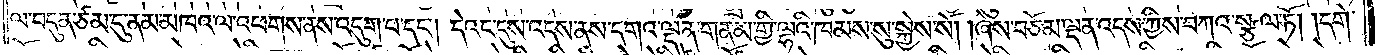ལ་བདུན་ཙམ་དུ་ནམ་མཁའ་ལ་འཕགས་ནས་འདུག་པ་དང༌། དེའང་དུས་འདས་ནས་དགའ་ལྡན་གནམ་གྱི་ལྷའི་ཁམས་སུ་སྐྱེས་སོ། །ཞེས་བཅོམ་ལྡན་འདས་ཀྱིས་བཀའ་སྩལ་ཏོ། །དགེ་
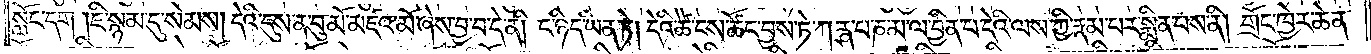སློང་དག །ཇི་སྙམ་དུ་སེམས། དེའི་དུས་ན་བུ་མོ་མཛའ་མོ་ཞེས་བྱ་བ་དེ་ནི། ང་ཉིད་ཡིན་ཏེ། དེའི་ཚེ་ངས་ཚོང་བྱས་ཏེ། ཀརྴ་པ་ཎ་མ་ལ་བྱིན་པ་དེའི་ལས་ཀྱི་རྣམ་པར་སྨིན་པས་ནི། གྲོང་ཁྱེར་ཆེན་
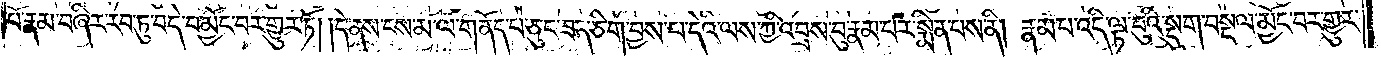པོ་རྣམ་བཞིར་རབ་ཏུ་བདེ་བ་མྱོང་བར་གྱུར་ཏོ། །དེ་ནས་ངས་མ་ལ་གནོད་པ་ཅུང་ཟད་ཅིག་བྱས་པ་དེའི་ལས་ཀྱི་འབྲས་བུ་རྣམ་པར་སྨིན་པས་ནི། རྣམ་པ་འདི་ལྟ་བུའི་སྡུག་བསྔལ་མྱོང་བར་གྱུར་
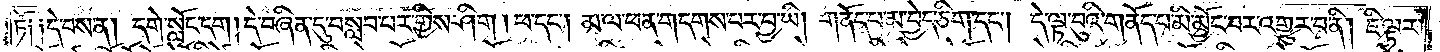ཏོ༑ ༑དེ་བས་ན། དགེ་སློང་དག །དེ་བཞིན་དུ་བསླབ་པར་གྱིས་ཤིག །ཕ་དང༌། མ་ལ་ཕན་གདགས་པར་བྱ་ཡི། གནོད་པ་མ་བྱེད་ཅིག་དང༌། དེ་ལྟ་བུའི་གནོད་པ་མི་མྱོང་བར་འགྱུར་བ་ནི། ཇི་ལྟར་
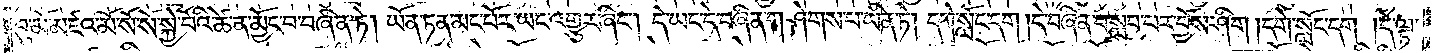བུ་མོ་མཛའ་མོ་སོ་སོ་སྐྱེ་བོའི་ཚེ་ན་མྱོང་བ་བཞིན་ཏེ། ཡོན་ཏན་མང་པོར་ཡང་འགྱུར་ཞིང༌། དེ་ཡང་དེ་བཞིན་གཤེགས་པ་ཡིན་ཏེ། དགེ་སློང་དག །དེ་བཞིན་བསླབ་པར་བྱོས་ཤིག །དགེ་སློང་དག །དེ་ལྟ་
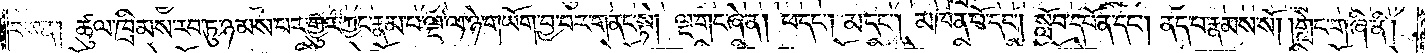བས་ན། ཚུལ་ཁྲིམས་རབ་ཏུ་ཉམས་པར་གྱུར་ཀྱང་རྣམ་པ་ལྔ་ལ་ཉེ་གཡོག་བྱ་བར་གནང་སྟེ། ལྔ་གང་ཞེ་ན། ཕ་དང༌། མ་དང༌། མཁན་པོ་དང༌། སློབ་དཔོན་དང༌། ནད་པ་རྣམས་སོ། །གླེང་གཞི་ནི།
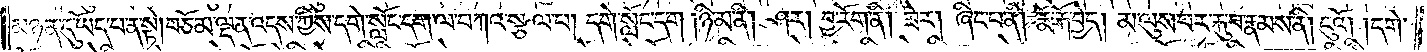མཉན་དུ་ཡོད་པ་ན་སྟེ། །བཅོམ་ལྡན་འདས་ཀྱིས་དགེ་སློང་དག་ལ་བཀའ་སྩལ་པ། དགེ་སློང་དག །ཉི་མ་ནི། ཤར། བྱ་རོག་ནི། ཟེར། ཞིང་པ་ནི། རྨོ་རྐོ་བྱེད། མ་ལུས་པར་རྐུ་བ་རྣམས་ནི། ངུའོ། །དགེ་
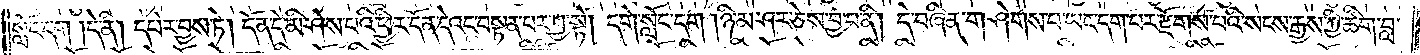སློང་དག །དེ་ནི། དཔེར་བྱས་ཏེ། དོན་དེ་མི་ཤེས་པའི་ཕྱིར་དོན་དེའང་བསྟན་པར་བྱ་སྟེ། དགེ་སློང་དག །ཉི་མ་ཤར་ཅེས་བྱ་བ་ནི། དེ་བཞིན་གཤེགས་པ་ཡང་དག་པར་རྫོགས་པའི་སངས་རྒྱས་ཀྱི་ཚིག་བླ་
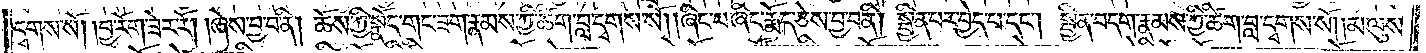དྭགས་སོ། །བྱ་རོག་ཟེར་རོ། །ཞེས་བྱ་བ་ནི། ཆོས་ཀྱི་སྣོད་གང་ཟག་རྣམས་ཀྱི་ཚིག་བླ་དྭགས་སོ། །ཞིང་བ་ཞིང་རྨོད་ཅེས་བྱ་བ་ནི། སྦྱིན་པར་བྱེད་པ་དང༌། སྦྱིན་བདག་རྣམས་ཀྱི་ཚིག་བླ་དྭགས་སོ། །མ་ལུས་
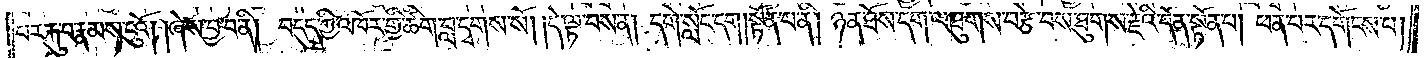པར་རྐུ་བ་རྣམས་ངུའོ། །ཞེས་བྱ་བ་ནི། བདུད་ཀྱི་འཁོར་གྱི་ཚིག་བླ་དྭགས་སོ། །དེ་ལྟ་བས་ན། དགེ་སློང་དག །སྟོན་པ་ནི། ཉན་ཐོས་དག་ལ་ཐུགས་བརྩེ་བས་ཐུགས་རྗེའི་དོན་སྟོན་པ། ཕན་པར་དགོངས་པ།
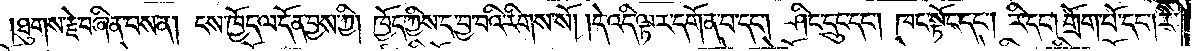ཐུགས་རྗེ་བཞིན་པས་ན། ངས་ཁྱོད་ལ་དོན་བྱས་ཀྱི། ཁྱོད་ཀྱིས་ད་བྱ་བའི་རིགས་སོ། །དེ་འདི་ལྟར་དགོན་པ་དང༌། ཤིང་དྲུང་དང༌། ཁང་སྟོང་དང༌། རི་དང༌། གྲོག་པོ་དང༌། རི་
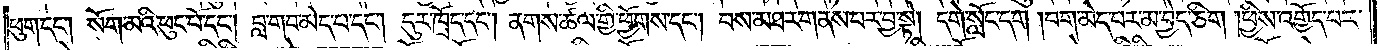ཕུག་དང༌། སོག་མའི་ཕུང་པོ་དང༌། བླ་བག་མེད་པ་དང༌། དུར་ཁྲོད་དང༌། ནགས་ཚལ་གྱི་ཕྱོགས་དང༌། བས་མཐར་གནས་པར་བྱ་སྟེ། དགེ་སློང་དག། བག་མེད་པར་མ་བྱེད་ཅིག །ཕྱིས་འགྱོད་པར་
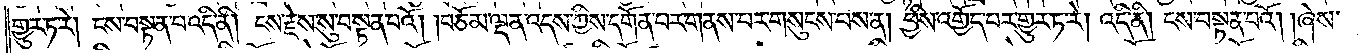གྱུར་ཏ་རེ། ངས་བསྟན་པ་འདི་ནི། ངས་རྗེས་སུ་བསྟན་པའོ། །བཅོམ་ལྡན་འདས་ཀྱིས་དགོན་པར་གནས་པར་གསུངས་པས་ན། ཕྱིས་འགྱོད་པར་གྱུར་ཏ་རེ། འདི་ནི། ངས་བསྟན་པའོ། །ཞེས་
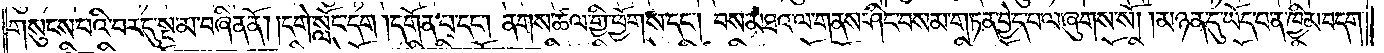གསུངས་པའི་བར་དུ་སྔ་མ་བཞིན་ནོ། །དགེ་སློང་དག །དགོན་པ་དང༌། ནགས་ཚལ་གྱི་ཕྱོགས་དང༌། བས་མཐའ་ལ་གནས་ཤིང་བསམ་གཏན་བྱེད་པ་ལ་ཞུགས་སོ། །མཉན་དུ་ཡོད་པ་ན་ཁྱིམ་བདག་
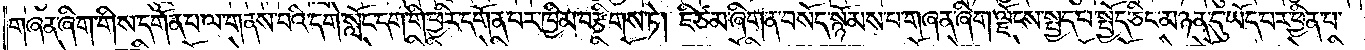གཞན་ཞིག་གིས་དགོན་པ་ལ་གནས་པའི་དགེ་སློང་དག་གི་ཕྱིར་དགོན་པར་ཁྱིམ་བརྩིགས་ཏེ། ཇི་ཙམ་ཞིག་ན་བསོད་སྙོམས་པ་གཞན་ཞིག་ལྗོངས་སྤྱད་པ་སྤྱོད་ཅིང་མཉན་དུ་ཡོད་པར་ཕྱིན་པ་
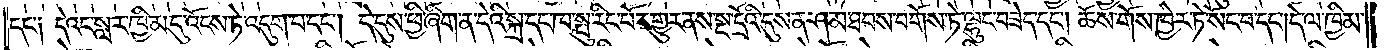དང་༑ དེའང་སླར་ཁྱིམ་དུ་འོངས་ཏེ་འདུག་པ་དང༌། དེ་དུས་ཕྱི་ཞིག་ན་དེའི་སྐྲ་དང་ཁ་སྤུ་རིང་པོར་གྱུར་ནས་སྔ་དྲོའི་དུས་ན་ཤམ་ཐབས་བགོས་ཏེ་ལྷུང་བཟེད་དང༌། ཆོས་གོས་ཁྱེར་ཏེ་སོང་བ་དང༌། དེ་ལ་ཁྱིམ་
